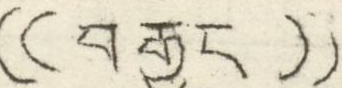(( བརྒྱད ))
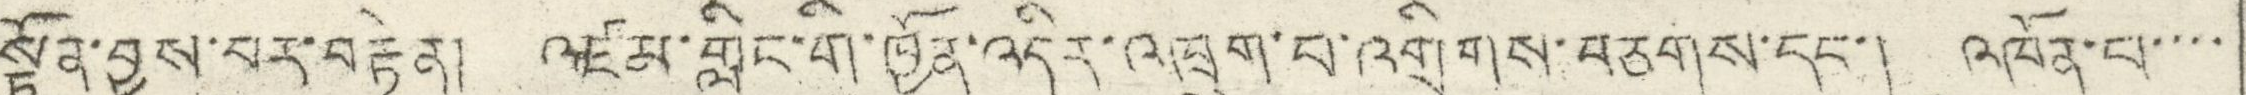སྟོན་བྱས་པར་བརྟེན། འཛམ་གླིང་གི་ཁྱོན་འདིར་འཁྲུག་བ་འགྲིགས་བཅགས་དང་། འཁོན་པ་་་་
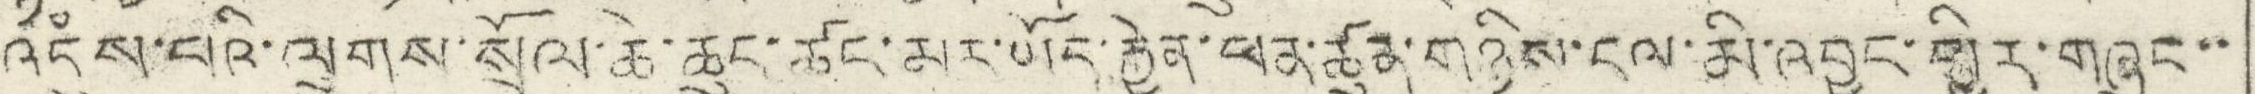འདུཾས་པའི་ལུགས་སྲོལ་ཆེ་ཆུང་ཚང་མར་ཡོད་རྐྱེན་ཕན་ཚུན་གཉིས་ངལ་མི་འབྱུང་ཕྱིར་གཞུང་་
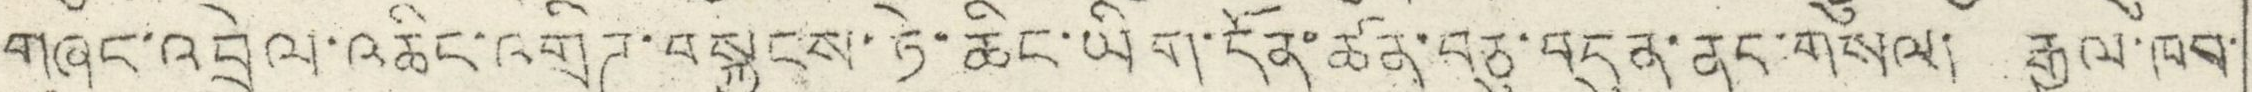གཞུང་འབྲེལ་འཆིང་འགྲིཊ་བསྐྱངས་ཏེ་ཆིང་ཡིག་དོན་ཚན་བཅུ་བདུན་ནང་གསོལ། རྒྱལ་ཁབ་
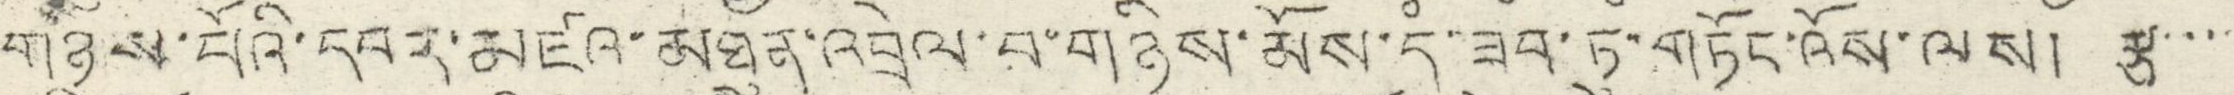གཉིས་པོའི་དབར་མཛའ་མཐུན་འབྲེལ་བ་གཉིས་མོས་དཾ་ཟབ་ཏུ་གཏོང་འོས་ལས། རྩ་་་་
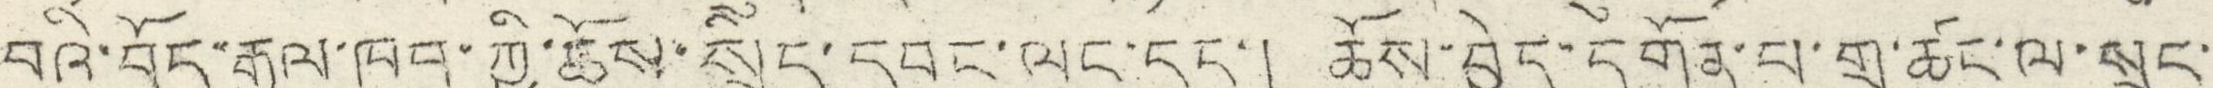བའི་བོད་རྒྱལ་ཁབ་ཀྱི་ཆོས་སྲིད་དབང་ལུང་དང་། ཆོས་བྱེད་དགོན་པ་གྲ་ཚང་ལ་སྲུང་་
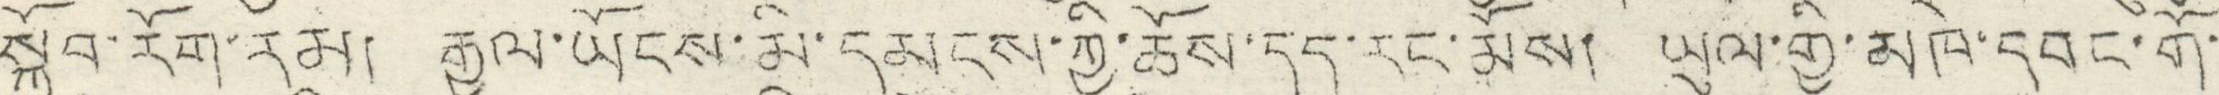སྐྱོབ་རོག་རམ། རྒྱལ་ཡོངས་མི་དམངས་ཀྱི་ཆོས་དད་རང་མོས། ཡུལ་གྱི་མཁེ་དབང་གོ་
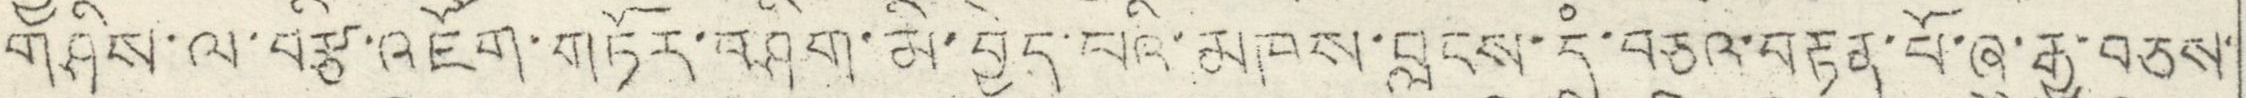གཤིས་ལ་བརྩི་འཇོག་གཏོརབཤིག་མི་བྱེད་པའི་མཁས་བླངས་དཾ་བཅའ་བརྟན་པོ་ཞུ་རྒྱུ་བཅས་
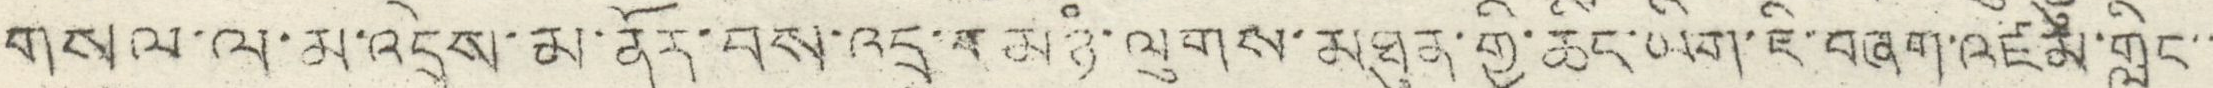གསལ་ལ་མ་འདྲེས་མ་ནོར་བས་འདྲ་བ་མཉཾ་ལུགས་མཐུན་གྱི་ཆིང་ཡིག་ཇི་བཞག་འཛམ་གླིང་་
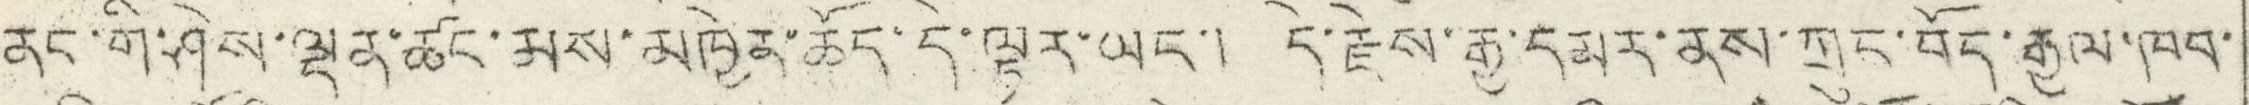ནང་གི་ཤེས་ལྡན་ཚང་མས་མཁྱེན་ཆོད་དེ་ལྟར་ཡང་། དེ་རྗེས་རྒྱ་དམར་ནས་ཀྲུང་བོད་རྒྱལ་ཁབ་
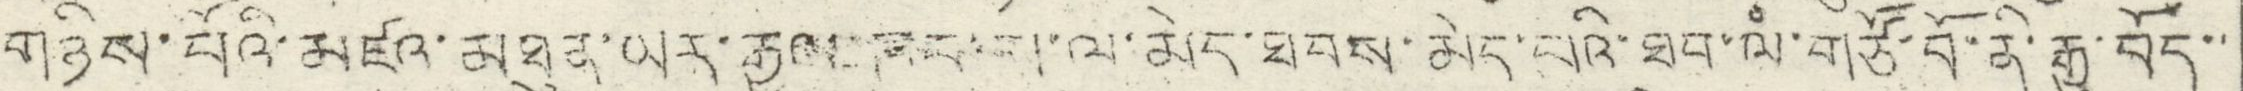གཉིས་པོའི་མཛའ་མཐུན་ཡར་རྒྱལ་ཁབ་ས་ལ་མེད་ཐབས་མེད་པའི་ཐབ་ལཾ་གཙོ་བོ་ནི་རྒྱ་བོད་་
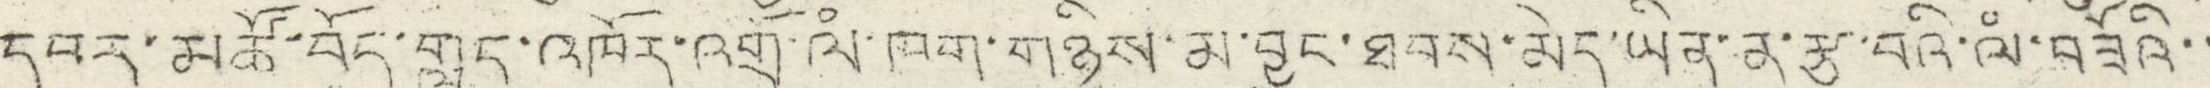དབར་མཚོ་བོད་གླད་འཁོར་འགྲོ་ལཾ་ཁག་གཉིས་མ་བྱུང་ཐབས་མེད་ཡིན་ན་རྩ་བའི་ལཾ་བཟོའི་་
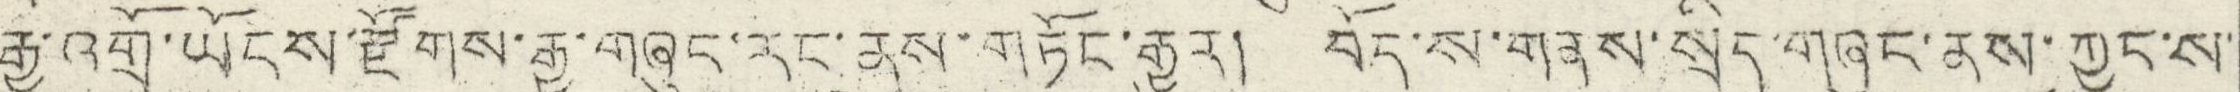རྒྱུ་འགྲོ་ཡོངས་རྫོགས་རྒྱ་གཞུང་རང་ནས་གཏོང་རྒྱུར། བོད་ས་གནས་སྲིད་གཞུང་ནས་ཀྱང་ས་
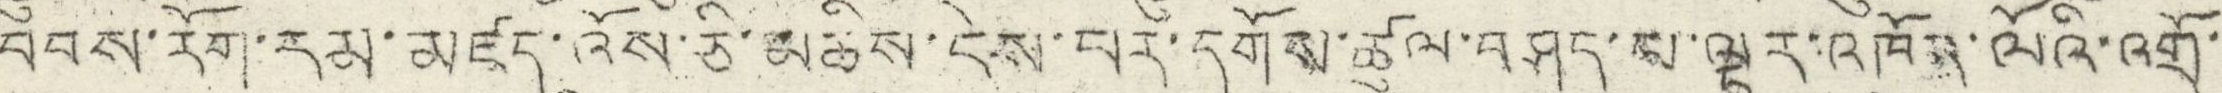བབས་རོག་རམ་མཛད་འོས་ཅི་མཆིས་ངེས་བར་དགོས་ཚུལ་བཤད་པ་ལྟར་འཁོར་ལོའི་འགྲོ་
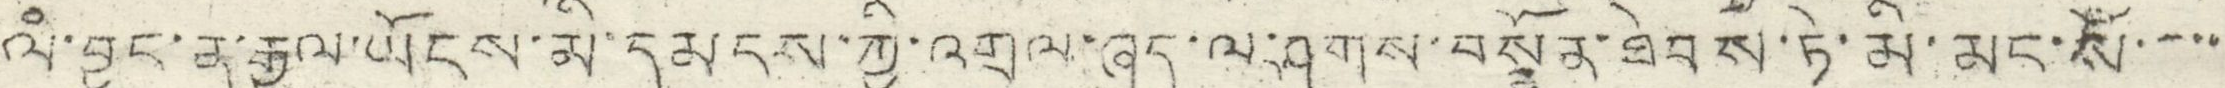ལཾ་བྱུང་ན་རྒྱལ་ཡོངས་མི་དམངས་ཀྱི་འགྲུལ་ཞུད་ལ་ཤུགས་བསྣོན་ཐེབས་ཏེ་མི་མང་སོ་་་་་
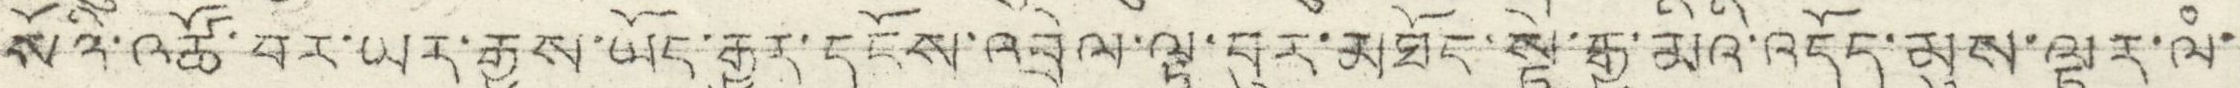སོའི་འཚོ་བར་ཡར་རྒྱས་ཡོང་རྒྱུར་དངོས་འབྲེལ་ལྟ་བུར་མཐོང་སྟེ་རྒྱ་མིའི་འདོད་མུས་ལྟར་ལཾ་
